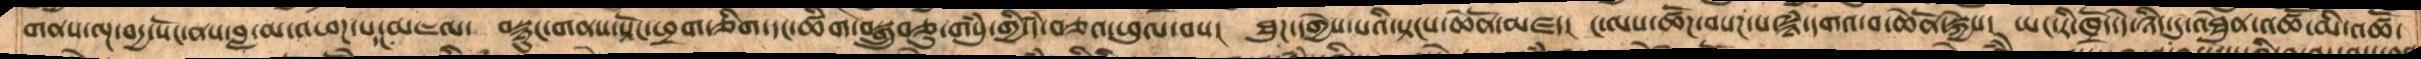གནས་ལྔ་བདྱ་སོང་ནས་བླ་མ་འཕཌ་པ་དང་མཇལ་ བསྙུང་གནས་སྟོང་ཕྲག་ཅིག་དང་ཚིག་བསྒྲུབ་བཅུ་གསུཾ་གྱི་དཾ་བཅའ་ཕུལ་བས། ཐུཌ་དགྱེས་པའི་སྟངས་ཆེནོ་མཛད། ང་ལས་ཚོཌ་བསཌ་པ་སྙཾ་དགའ་བ་ཆེནོ་སྐྱེས། ཡང་རི་ཁྲོད་དེ་ཉིད་དུ་འཐེུན་འཚོ་མི་འཚོ་
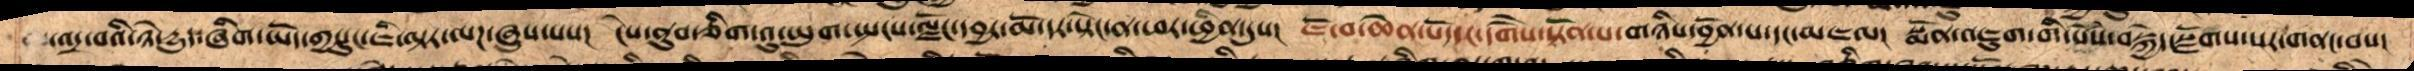འདྲ་བའི་ཉེ་དྱུད་ཞིག་ཡོད་གྱསུང་ཇི་ལྟར་ལཌ་ཞུས་པས།  ངེས་ནུབ་ཅིག་འུ་ཡུག་སྤངས་ལྗོང་དབྱར་མོ་དར་སྟེང་ནས་ཕར་ཕྱིན་དུས།  ཇོ་བ་ཆེན་པོ་དང་དགཻས་སྟོན་པ་གཉིས་བྱོན་པ་དང་མཇལ།  སྨོན་འཇུག་གི་སེཾས་བསྐྱེད་སྫོགས་པར་གནང་བས་
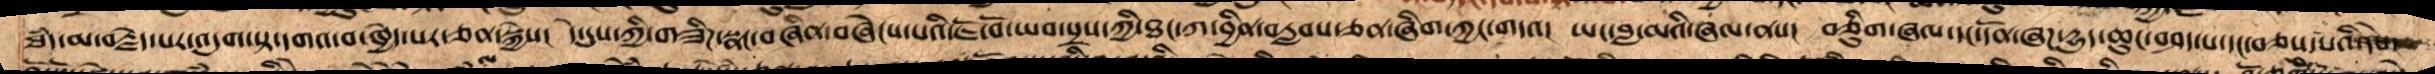ཐཾད་མ་བརྗེད་པར་འདུག་སྟ་དགའ་བ་ཁྱེད་པར་ཅན་སྐྱེས།  དེ་དུས་གཟིཌ་སྣང་བཞིན་བཞེངས་པའི་ཇོ་བོ་ཡབ་སྲས་ཀྱི་ཐང་ཀ་བྱིན་རླབས་ཅན་ཞིག་ཀྱང་གདའ།  ཡང་བླ་མའི་ཞལ་ནས།  བཅིུག་ཞལ་དང་དོན་ཞཌ་དྱུད་ཆུང་བཤད་པ་དང་བཅས་པའི་དཔེ་
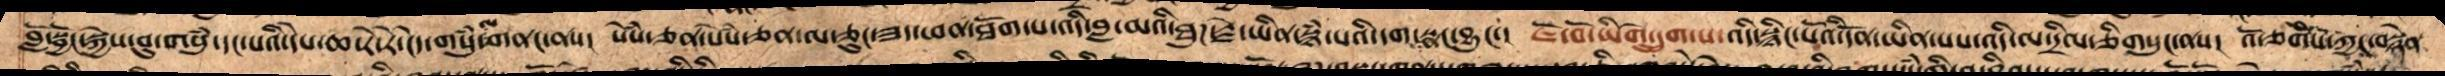བློ་སྦྱོང་སྐྱེས་བུ་གསུཾ་དང་བཅས་པའི་དཔེ་ཆ་རེ་རེ་ངེད་གསུཾ་ལ་གནང་ནས། སེཾས་ཅན་སེཾས་ཅན་ལ་ཅུང་ཟད་ཕན་ཐོག་པ་འདི་བླ་མའི་ཐུཌ་རྗེ་ཡིན་སྙཾ་པའི་དག་སྣང་བྱུང་། ཇོ་བོ་ཡིགེ་དྲུག་པ་འདི་སྙིང་པོའི་དོན་ཡིན་པས་འདི་ལ་དྲིལ་ཅིག་གསུང་ནས། འུ་ཅགིས་ཀྱང་བསྙེན་
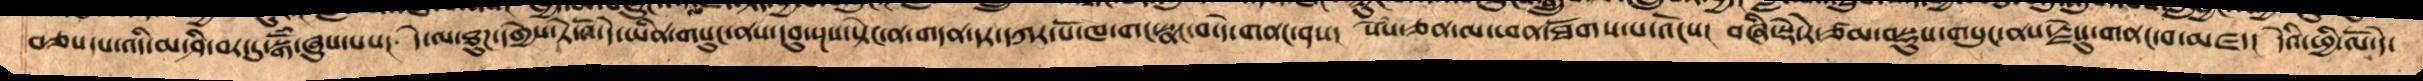བཅས་པ་འདི་མ་ཤི་བར་དུ་སྒོཾ་ཞུས་པས།  དེ་ལ་ཐུཌ་དགྱེས་ཏེ་འོ་དེ་ཡིན་གསུང་ནས་དབུ་སྔས་སྟེང་ན་གདན་དར་དཀར་པོ་ཁ་གང་སྣང་བ་དེ་གནང་ནས།  སེསཾ་ཅན་ལ་ཕན་ཐོགས་པ་འོངས།  བཞི་སྡེ་རེ་ཙམ་བསྡུས་གསུང་ནས་རྗེསུ་གནང་བ་མཛད།  དེའི་ཕྱི་ལོ་དེ་
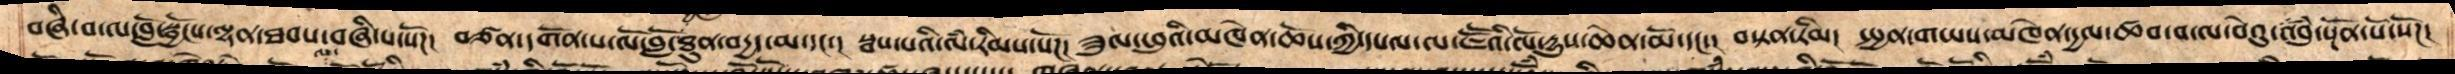བཞི་བ་ལ་བློ་སྦྱོངས་ལྷན་ཐབས་ལ་བཞི་པ་སོཌ།  བཙན་དགོན་པ་ལོ་བློ་ཐུན་བདྱད་མ་དང་།  སྦས་པའི་ལཾ་རིམས་སོཌ། ཟུལ་ཕུའི་མཁེན་ཆོས་ཀྱི་དཔལ་ལ་ཇཽའི་ལོ་དྱུས་ཆེན་མོ་དང་།  བསྟན་རིམ། སྤྱན་གཡས་མཁེན་དྱལ་ཚབ་བ་ལ་བེའུ་འབུཾ་སྔོན་པོ་སོཌ།
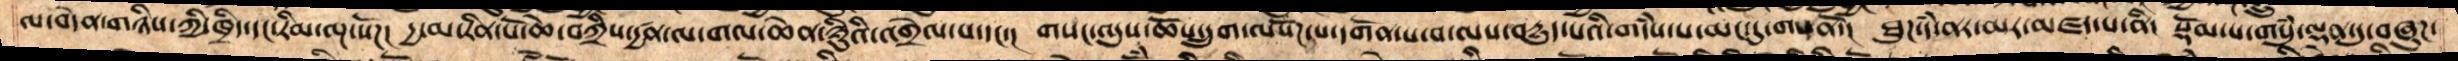ལ་བདེན་གཉིས་ཀྱི་ཁྲིད་རིམ་ལྔ་སོཌ།  དྱ་མ་རིན་པོ་ཆེ་བཀྲིས་དྱཚན་ལ་གལ་ཆེན་ཉིུའི་འགྲེལ་པ་དང་།  གསང་འདུས་ཆོས་དྲུག་ལསོཌ་པ་དགོན་པ་བ་ལས་བདྱུད་པའི་གདཾས་པ་མང་དུ་གསན་ནོ།  ཐུཌ་དཾ་ནར་མར་མཛད་པ་ནི་  སྡོམ་པ་གསུཾ་ལྡན་དུ་བཞུཌ་
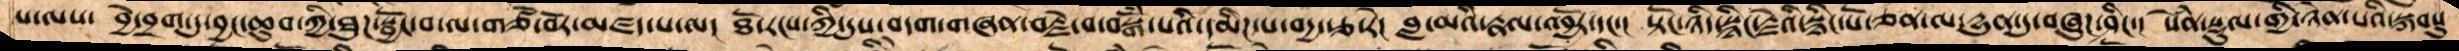པ་ལས།  བྱེ་བྲག་དུ་བྱང་ཆུབ་ཀྱི་ཐུཌ་སྦྱོང་བ་ལ་གཙོ་བོར་མཛད་པ་ལ།  ཐོ་རངས་ཀྱི་དུས་བདག་གཞན་བརྗེ་བ་བསྒོཾ་པའི་དམིཌ་པ་བདྱ་རྩ་རེ།  བླ་མའི་རྣལ་འབྱོར་དང་།  སྟོང་ཉིད་སྙིང་རྗེའི་སྙིང་པོ་ཅན་ལ་དྱུན་དུ་བཞུཌ་ཤིང་།  སེཾས་སྡུལ་གྱི་ཉེན་པའི་སྐབསུ
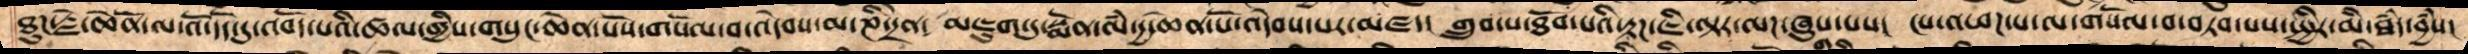ཐུཌ་རྗེ་ཆེནོ་ལ་འོ་དོད་དུ་འབོད་པའི་ཚལ་གྱིས་གསུང་ཆེན་པོས་གསོལ་བ་འདེབས་མ་ཎི་དྲེན༴  མཇུག་དུ་སྨོན་ལཾ་དྱ་ཆེན་པོ་འདེབས་པར་མཛད།  གྲུབ་པ་ཐོབ་པའི་རྟཌ་ཇི་ལྟར་ལཌ་ཞུས་པས།  ངས་འཕཌ་པ་ལ་གསོལ་བ་བཏབ་པས་སྤྱིར་མི་ཐཾད་བྱཾས།
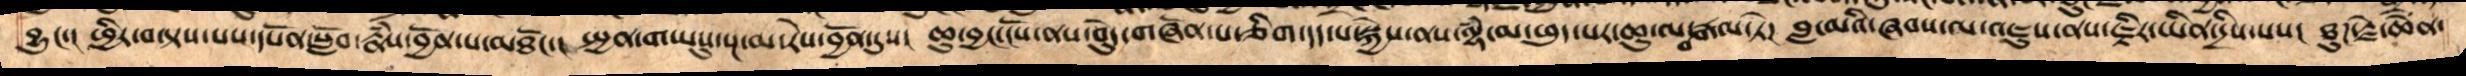བྱུང་།  ཕྱིར་བལྟས་པས་དཔོན་སློབ་རྣཾས་འབྱོན་པ་མཐོང་།  སྤྱན་གཡསུ་སྔ་མ་རེས་བྱོན་དུས།  ཆུ་བྱང་ངོས་ནས་བེུད་གཞོན་པ་ཅིག་དད་པ་སྐྱེས་ནས་ལྷཾ་མ་ཕུད་པར་ཆུ་ལ་བརྒལ་ཏེ།  བླ་མའི་ཞབས་ལ་འཇུས་པས་ཇྟིར་ཡིན་དྲིས་པས།  ཐུཌ་རྗེ་ཆེནོ་
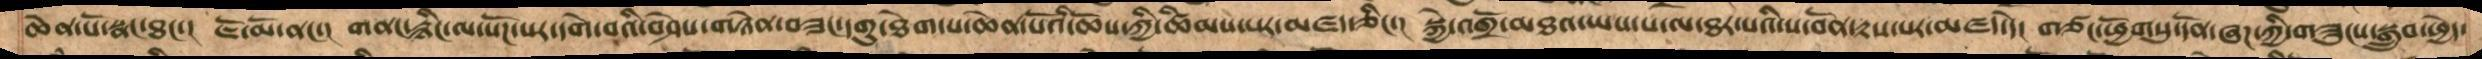ཆེན་པོ་སྣར་ཐང་།  ཇོ་མོ་ནང་།  གནང་རྙིང་ལ་སོཌ་པར་དགེ་བའི་བཤེས་གཉེན་བཟང་དགུ་ཐེག་པ་ཆེན་པོའི་ཆོས་ཀྱི་ཚིམས་པར་མཛད་ཅིང་།  སྐྱེ་འགྲོ་མཐའ་ཡས་པ་ལ་ཐར་པའི་ས་བོན་རྟས་པར་མཛད་དེ།  གཙང་ཕྱོགསུ་དོན་ཞཌ་ཀྱི་གཟུངས་སྒྲུབ་ཕྱེད་
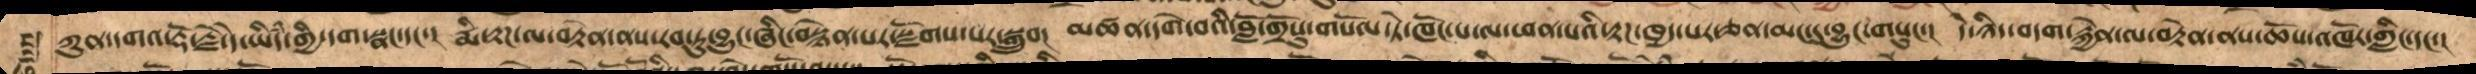ཀུན་དགའ་རྡོ་རྗེ་དེ་ཡིདཾ་གྱི་དག་སྣང་དང་། རྨི་རྟཌ་ལ་བརྟེན་ནས་རབ་ཏུ་བྱུང་ཞིང་བསྙེན་པར་སྫོགས་པར་སྒྲུབ། མཚན་དགེ་བའི་བློ་གྲོསུ་གསོལ་ཏེ་ཁོང་པ་ལ་ཕན་པའི་རྟཌ་ཁྱད་པར་ཅན་མང་དུ་བྱུང་གསུང་།  དེ་ཉིད་བདག་རྐྱེན་ལ་བརྟེན་ནས་ཆསོ་འཁོར་གླིང་དང་།
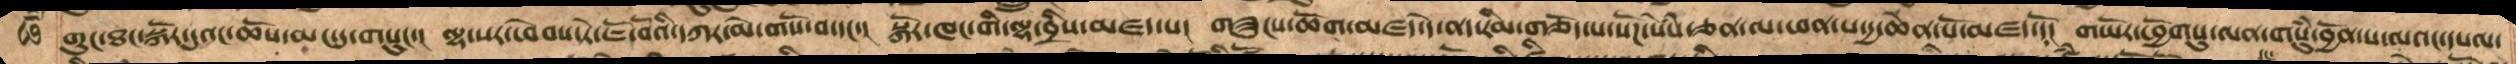གུང་་ཐང་སྐོར་དུའང་ཆོས་མང་དུ་གསུང་། ལྷ་སར་ཕེབས་ཏེ་ཇོ་བོའི་དཀར་མེ་གསོ་བ་དང་།  སྐོར་ཁང་གི་ལྷ་བྲིས་མཛད་པ། གཟུངས་ཆོག་མཛད་དེ་ནད་རིམ་གཅོད་པ་སོཌ་སེཾས་ཅན་ལ་ཕན་པ་དྱ་ཆེན་པོ་མཛད་དོ་།  གཡོར་ཕྱོགསུ་ལན་གསུཾ་བྱོན་པ་ལའང་དཔལ་
